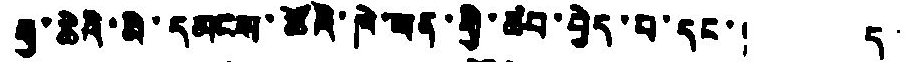རྒྱ་ཆེའི་མི་དམངས་ཚོའི་ཁེ་ཕན་གྱི་ཚབ་བྱེད་པ་དང་། ད་
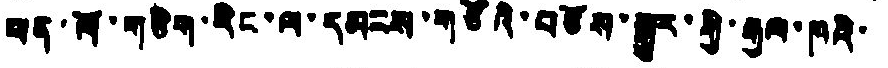ཕན་ལོ་གཅིག་རིང་ལ་དམངས་གཙོའི་བཅོས་སྒྱུར་གྱི་རྒྱལ་ཁའི་
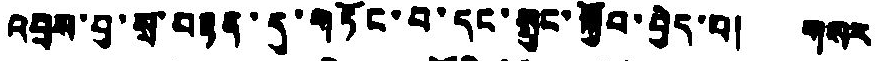འབྲས་བུ་སྲ་བརྟན་དུ་གཏོང་བ་དང་སྲུང་སྐྱོབ་བྱེད་པ། གསར
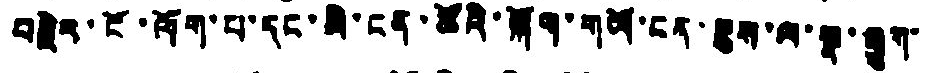བརྗེར་ངོ་ལོག་པ་དང་མི་ངན་ཚོའི་ལྐོག་གཡོ་ངན་ཇུས་ལ་སྣ་རྒྱུག་
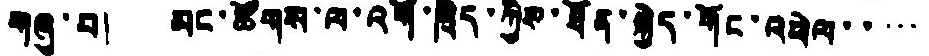གཞུ་བ། མང་ཚོགས་ལ་འགོ་ཁྲིད་ཀྱིས་ཐོན་སྐྱེད་གོང་འཕེལ་་་་་
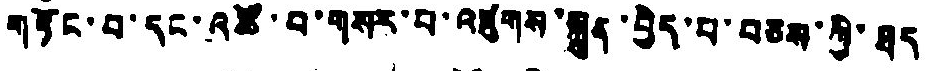གཏོང་བ་དང་འཚོ་བ་གསར་བ་འཛུགས་སྐྲུན་བྱེད་པ་བཅས་ཀྱི་ཐད
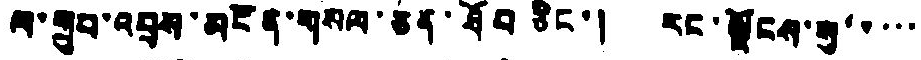ལ་གྲུབ་འབྲས་མངོན་གསལ་ཅན་ཐོབ ཅིང་། རང་ལྗོངས་སུ་་་་་
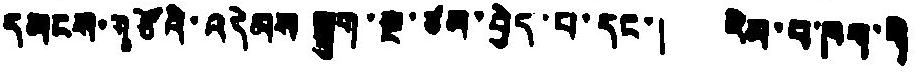དམངས་གཙོའི་འདེམས སྒྲུག་སྔ་ཙམ་བྱེད་པ་དང་། རིམ་པ་ཁག་གི
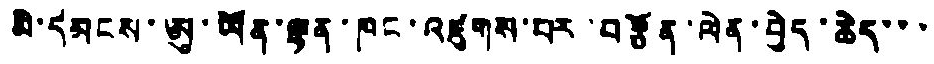མི་དམངས་ཨུ་ཡོན་ལྷན་ཁང་འཛུགས་པར་བརྩོན་ལེན་བྱེད་ཆེད་་་
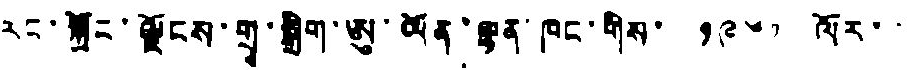རང་སྐྱོང་ལྗོངས་གྲྭ་སྒྲིག་ཨུ་ཡོན་ལྷན་ཁང་གིས་ ༡༩༦༡ ལོར་་
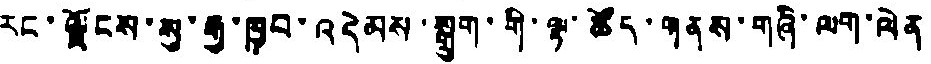རང་ལྗོངས་སུ་རྒྱ་ཁྱབ་འདེམས་སྒྲུག་གི་ལྟ་ཚོད་གནས་གཞི་ལག་ལེན
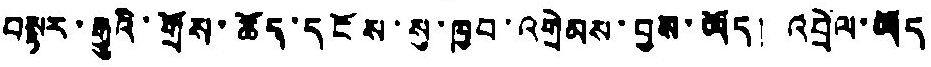བསྟར་རྒྱུའི་གྲོས་ཚོད་དངོས་སུ་ཁྱབ་འགྲེམས་བྱས་ཡོད། འབྲེལ་ཡོད
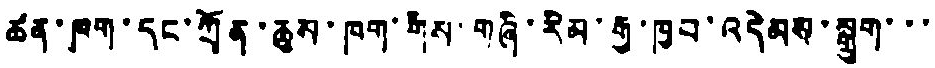ཚན་ཁག་དང་ཀྲོན་ཆུས་ཁག་གིས་གཞི་རིམ་རྒྱ་ཁྱབ་འདེམས་སྒྲུག་་་
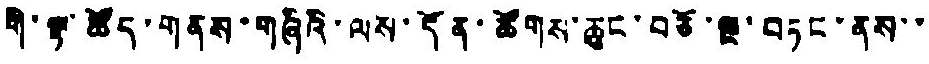གི་ལྟ་ཚོད་གནས་གཞིའི་ལས་དོན་ཚོགས་ཆུང་བཅོ་ལྔ་བཏང་ནས་་
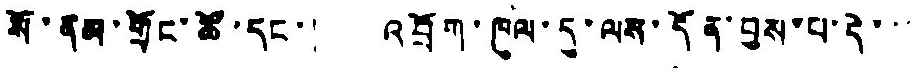སོ་ནམ་གྲོང་ཚོ་དང་། འབྲོག་ཁུལ་དུ་ལས་དོན་བྱས་པ་དེ་་་
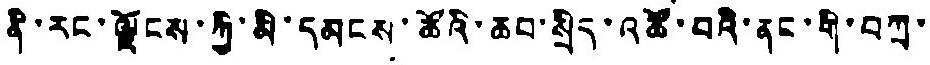ནི་རང་ལྗོངས་ཀྱི་མི་དམངས་ཚོའི་ཆབ་སྲིད་འཚོ་བའི་ནང་གི་བཀྲ་
